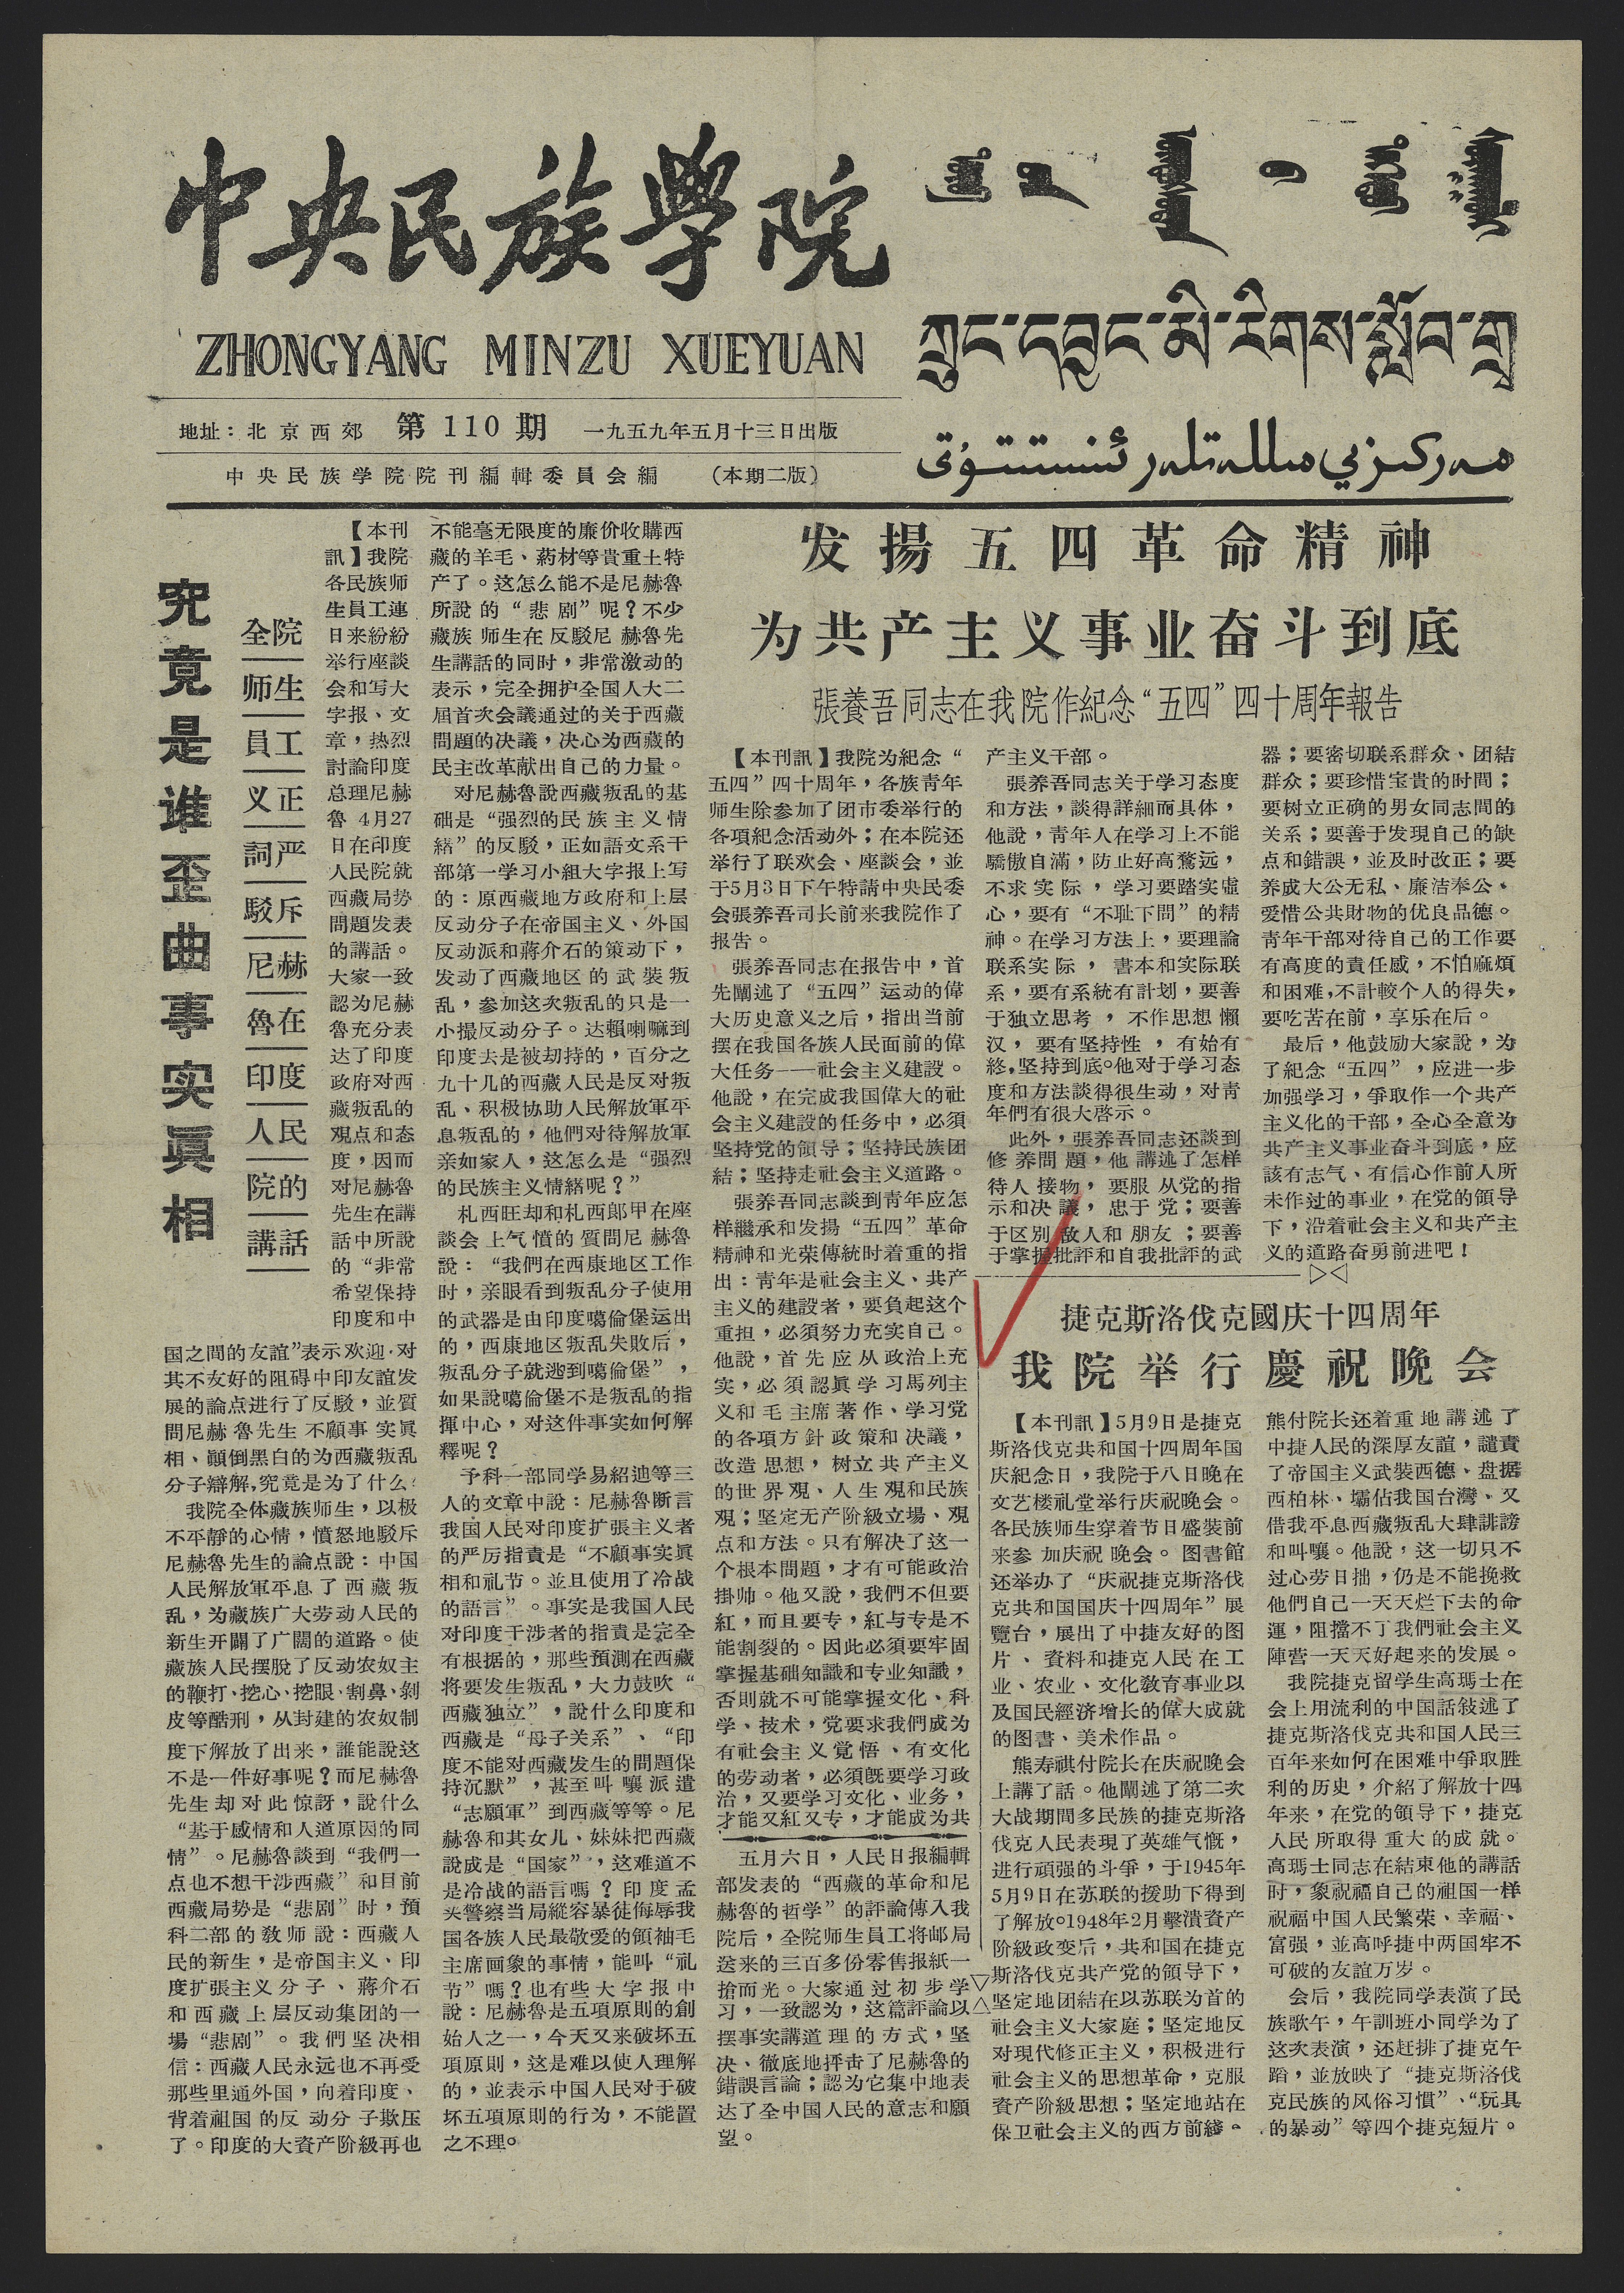中央民族學院
ZHONGYANG MINZU XUEYUAN
ᠲᠥᠪ ᠦᠨ ᠦᠨᠳᠦᠰᠦᠲᠡᠨ ᠦ ᠳᠡᠭᠡᠳᠦ ᠰᠤᠷᠭᠠᠭᠤᠯᠢ
ཀྲུང་དབྱང་མི་རིགས་སློབ་གྲྭ
مەركىزىي مىللەتلەر ئىنستىتۇتى
地址：北 京 西 郊 第 110 期 一九五九年五月十三日出版
中央民族学院院刊編輯委員會編 （本期二版）
究竟是谁歪曲事实眞相
全院
师生
員工
义正
詞严
駁斥
尼赫
魯在
印度
人民
院的
講話
【本刊
訊】我院
各民族师
生員工連
日来紛紛
举行座談
会和写大
字报、文
章，热烈
討論印度
总理尼赫
魯4月27
日在印度
人民院就
西藏局势
問題发表
的講話。
大家一致
認为尼赫
魯充分表
达了印度
政府对西
藏叛乱的
覌点和态
度，因而
对尼赫魯
先生在講
話中所說
的“非常
希望保持
印度和中
国之間的友誼”表示欢迎，对
其不友好的阻碍中印友誼发
展的論點进行了反駁，並質
問尼赫魯先生不顧事实眞
相、顚倒黑白的为西藏叛乱
分子辯解，究竟是为了什么？
我院全体藏族师生，以极
不平靜的心情，憤怒地駁斥
尼赫魯先生的論点說：中国
人民解放軍平息了西藏叛
乱，为藏族广大劳动人民的
新生开闢了广闊的道路。使
藏族人民摆脫了反动农奴主
的鞭打、挖心、挖眼、割鼻、剝
皮等酷刑，从封建的农奴制
度下解放了出来，誰能說这
不是一件好事呢？而尼赫魯
先生却对此惊訝，說什么
“基于感情和人道原因的同
情”。尼赫魯談到“我們一
点也不想干涉西藏”和目前
西藏局势是“悲剧”时，預
科二部的敎师說：西藏人
民的新生，是帝国主义，印
度扩張主义分子、蒋介石
和西藏上层反动集团的一
場“悲剧”。我們坚决相
信：西藏人民永远也不再受
那些里通外国，向着印度、
背着祖国的反动分子欺压
了。印度的大資产阶級再也
不能毫无限度的廉价收購西
藏的羊毛、葯材等貴重土特
产了。这怎么能不是尼赫魯
所說的“悲剧”呢？不少
藏族师生在反駁尼赫魯先
生講話的同时，非常激动的
表示，完全拥护全国人大二
届首次会議通过的关于西藏
問題的决議，决心为西藏的
民主改革献出自己的力量。
对尼赫魯說西藏叛乱的基
础是“强烈的民族主义情
緒”的反駁，正如語文系干
部第一学习小組大字报上写
的：原西藏地方政府和上层
反动分子在帝国主义、外国
反动派和蒋介石的策动下，
发动了西藏地区的武装叛
乱，参加这次叛乱的只是一
小撮反动分子。达賴喇嘛到
印度去是被劫持的，百分之
九十几的西藏人民是反对叛
乱、积极协助人民解放軍平
息叛乱的，他們对待解放軍
亲如家人，这怎么是“强烈
的民族主义情緒呢？”
札西旺却和札西郎甲在座
談会上气憤的質問尼赫魯
說：“我們在西康地区工作
时，亲眼看到叛乱分子使用
的武器是由印度噶倫堡运出
的，西康地区叛乱失敗后，
叛乱分子就逃到噶倫堡”，
如果說噶倫堡不是叛乱的指
揮中心，对这件事实如何解
釋呢？
予科一部同学易紹迪等三
人的文章中說：尼赫魯断言
我国人民对印度扩張主义者
的严厉指責是“不顧事实眞
相和礼节。並且使用了冷战
的語言”。事实是我国人民
对印度干涉者的指責是完全
有根据的，那些預測在西藏
将要发生叛乱，大力鼓吹“
西藏独立”，說什么印度和
西藏是“母子关系”、“印
度不能对西藏发生的問題保
持沉默”，甚至叫嚷派遣
“志願軍”到西藏等等。尼
赫魯和其女儿、妹妹把西藏
說成是“国家”，这难道不
是冷战的語言嗎？印度孟
买警察当局縱容暴徒侮辱我
国各族人民最敬爱的領袖毛
主席画象的事情，能叫“礼
节”嗎？也有些大字报中
說：尼赫魯是五項原則的創
始人之一，今天又来破坏五
項原則，这是难以使人理解
的，並表示中国人民对于破
怀五項原則的行为，不能置
之不理。
发 揚 五 四 革 命 精 神
为共产主义事业奋斗到底
張養吾同志在我院作紀念“五四”四十周年報告
【本刊訊】我院为紀念“
五四”四十周年，各族靑年
师生除参加了团市委举行的
各項紀念活动外；在本院还
举行了联欢会、座談会，並
于5月3日下午特請中央民委
会張养吾司长前来我院作了
报告。
張养吾同志在报告中，首
先闡述了“五四”运动的偉
大历史意义之后，指出当前
摆在我国各族人民面前的偉
大任务——社会主义建設。
他說，在完成我国偉大的社
会主义建設的任务中，必須
坚持党的領导；坚持民族团
結；坚持走社会主义道路。
張养吾同志談到靑年应怎
样繼承和发揚“五四”革命
精神和光荣傳統时着重的指
出：靑年是社会主义、共产
主义的建設者，要負起这个
重担，必須努力充实自己。
他說：首先应从政治上充
实，必須認眞学习馬列主
义和毛主席著作、学习党
的各項方針政策和决議，
改造思想，树立共产主义
的世界覌、人生覌和民族
覌；鉴定无产阶級立場、覌
点和方法。只有解决了这一
个根本問題，才有可能政治
掛帅。他又說，我們不但要
紅，而且要专，紅与专是不
能割裂的。因此必須要牢固
掌握基础知識和专业知識，
否則就不可能掌握文化、科
学、技术，党要求我們成为
有社会主义覚悟、有文化
的劳动者，必須旣要学习政
治，又要学习文化、业务，
才能又紅又专，才能成为共
产主义干部。
張养吾同志关于学习态度
和方法，談得詳細而具体，
他說，靑年人在学习上不能
驕傲自滿，防止好高鶩远，
不求实际，学习要踏实虛
心，要有“不耻下問”的精
神。在学习方法上，要理論
联系实际，書本和实际联
系，要有系統有計划，要善
于独立思考，不作思想懶
汉，要有坚持性，有始有
終，坚持到底。他对于学习态
度和方法談得很生动，对靑
年們有很大啓示。
此外，張养吾同志还談到
修养問題，他講述了怎样
待人接物，要服从党的指
示和决議，忠于党；要善
于区别敌人和朋友；要善
于掌握批評和自我批評的武
器；要密切联系群众、团結
群众；要珍惜宝貴的时間；
要树立正确的男女同志間的
关系；要善于发現自己的缺
点和錯誤，並即使改正；要
养成大公无私、廉洁奉公、
爱惜公共財物的优良品德。
靑年干部对待自己的工作要
有高度的責任感，不怕麻煩
和困难，不計較个人的得失，
要吃苦在前，享乐在后。
最后，他鼓励大家說，为
了紀念“五四”，应进一步
加强学习，爭取作一个共产
主义化的干部，全心全意为
共产主义事业奋斗到底，应
該有志气、有信心作前人所
未作过的事业，在党的領导
下，沿着社会主义和共产主
义的道路奋勇前进吧！
捷克斯洛伐克國庆十四周年
我院举行慶祝晚会
五月六日，人民日报編輯
部发表的“西藏的革命和尼
赫魯的哲学”的評論傳入我
院后，全院师生員工将邮局
送来的三百多份零售报紙一
搶而光。大家通过初步学
习，一致認为，这篇評論以
摆事实講道理的方式，坚
决、徹底地抨击了尼赫魯的
錯誤言論；認为它集中地表
达了全中国人民的意志和願
望。
【本刊訊】5月9日是捷克
斯洛伐克共和国十四周年国
庆紀念日，我院于八日晚在
文艺楼礼堂举行庆祝晚会。
各民族师生穿着节日盛装前
来参加庆祝晚会。图書館
还举办了“庆祝捷克斯洛伐
克共和国国庆十四周年”展
覽台，展出了中捷友好的图
片、資料和捷克人民在工
业、农业、文化敎育事业以
及国民經济增長的偉大成就
的图書、美术作品。
熊寿祺付院长在庆祝晚会
上講了話。他闡述了第二次
大战期間多民族的捷克斯洛
伐克人民表現了英雄气概，
进行頑强的斗爭，于1945年
5月9日在苏联的援助下得到
了解放。1948年2月擊潰資产
阶級政变后，共和国在捷克
斯洛伐克共产党的領导下，
坚定地团結在以苏联为首的
社会主义大家庭；坚定地反
对現代修正主义，积极进行
社会主义的思想革命，克服
資产阶級思想；坚定地站在
保卫社会主义的西方前綫。
熊付院长还着重地講述了
中捷人民的深厚友誼，譴責
了帝国主义武装西德、盘踞
西柏林、壩佔我国台灣、又
借我平息西藏叛乱大肆誹謗
和叫嚷。他說，这一切只不
国心劳日拙，仍是不能挽救
他們自己一天天烂下去的命
運，阻擋不了我們社会主义
陣营一天天好起来的发展。
我院捷克留学生高瑪士在
会上用流利的中国話敍述了
捷克斯洛伐克共和国人民三
百年来如何在困难中爭取胜
利的历史，介紹了解放十四
年来，在党的領导下，捷克
人民所取得重大的成就。
高瑪士同志在結束他的講話
时，象祝福自己的祖国一样
祝福中国人民繁荣、幸福、
富强，並高呼捷中两国牢不
可破的友誼万岁。
会后，我院同学表演了民
族歌午，午訓班小同学为了
这次表演，还赶排了捷克午
蹈，並放映了“捷克斯洛伐
克民族的风俗习慣”、“玩具
的暴动”等四个捷克短片。
